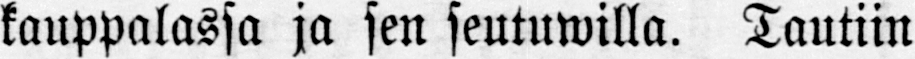kauppalassa ja sen seutuwilla. Tautiin
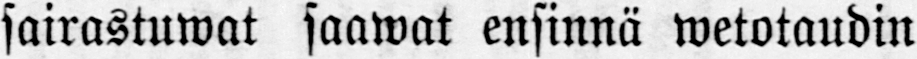sairastuwat saawat ensinnä wetotaudin
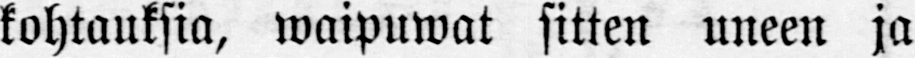kohtauksia, waipuwat sitten uneen ja
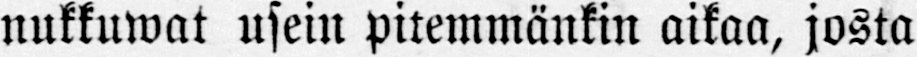nukkuwat usein pitemmänkin aikaa, josta
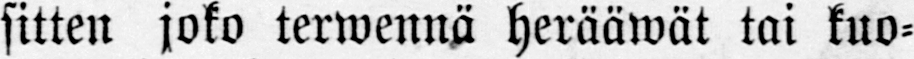sitten joko terwennä herääwät tai kuo-
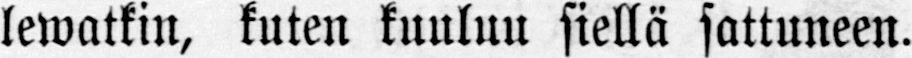lewatkin, kuten kuuluu siellä sattuneen.
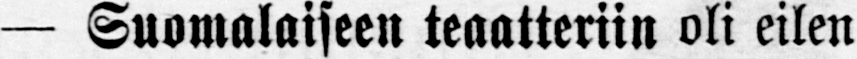— Suomalaiseen teaatteriin oli eilen
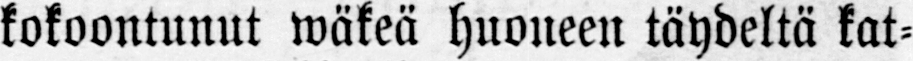kokoontunut wäkeä huoneen täydeltä kat-
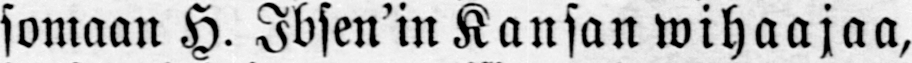somaan H. Ibsen'in Kansan wihaajaa,
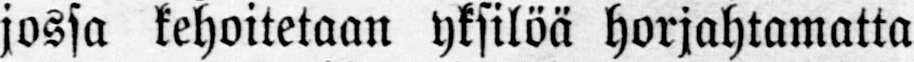jossa kehoitetaan yksilöä horjahtamatta
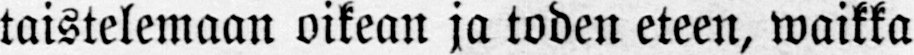taistelemaan oikean ja toden eteen, waikka
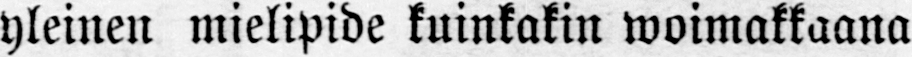yleinen mielipide kuinkakin woimakkaana
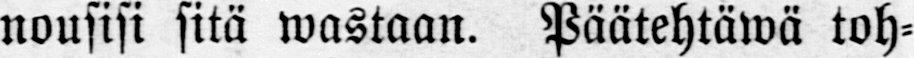nousisi sitä wastaan. Päätehtäwä toh-
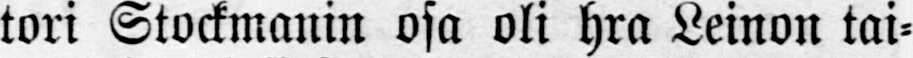tori Stockmanin osa oli hra Leinon tai-
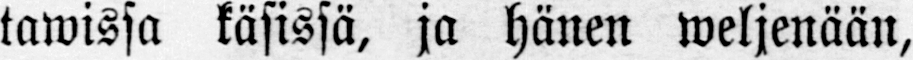tawissa käsissä, ja hänen weljenään,
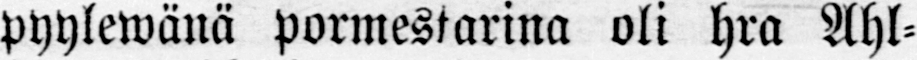pyylewänä pormestarina oli hra Ahl-
